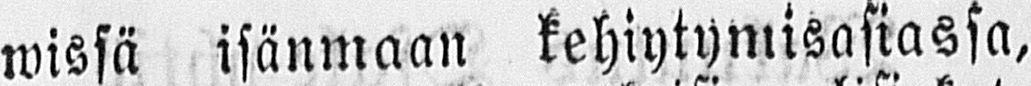wissä isänmaan kehiytymisasiassa,
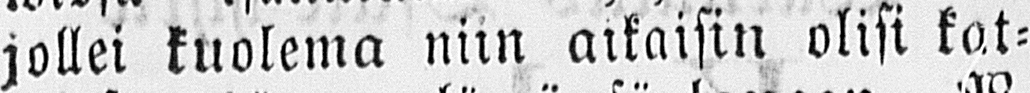jollei kuolema niin alkaisin olisi kat-
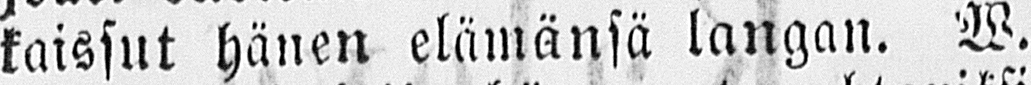kaissut hänen elämänsä langan. W.
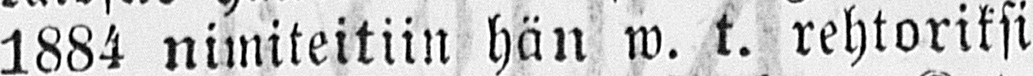1884 nimitettiin hän w. t. rehtoriksi
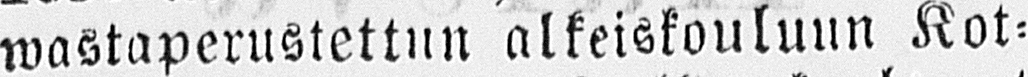wastaperustettun alkeiskouluun Kot-
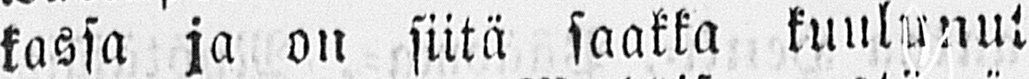kassa ja on siitä saakka kuulunut
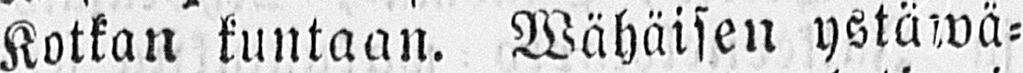Kotkan kuntaan. Wähäisen ystäwä-
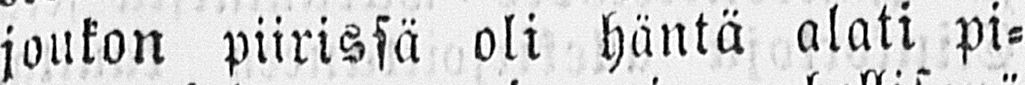joukon piirissä oli häntä pi-
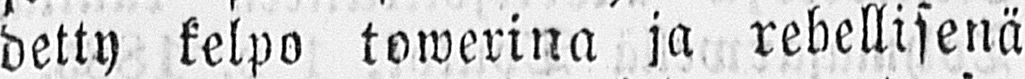detty kelpo towerina ja rehellisenä
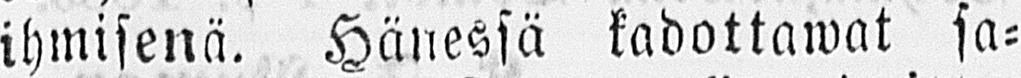ihmisenä. Hänessä kadottawat sa-
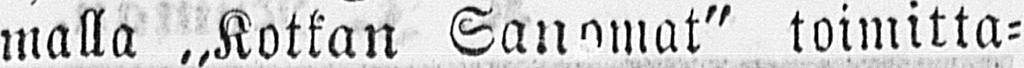malla ˶Kotkan Sanomat" toimitta-
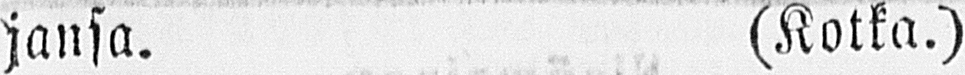jansa. (Kotka.)
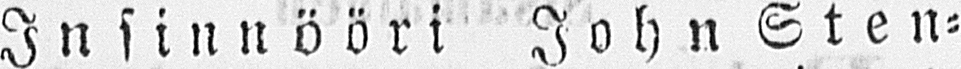Insinnööri John Sten-
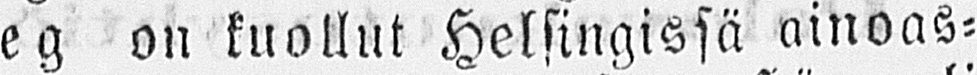beg on kuollut Helsingissä ainoas-
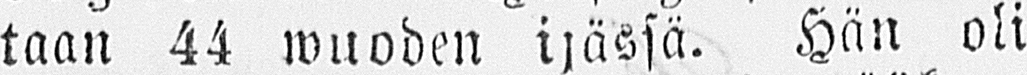taan 44 wuoden ijässä. Hän oli
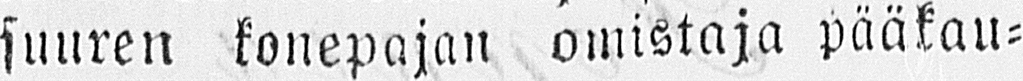suuren konepajan omistaja pääkau-
